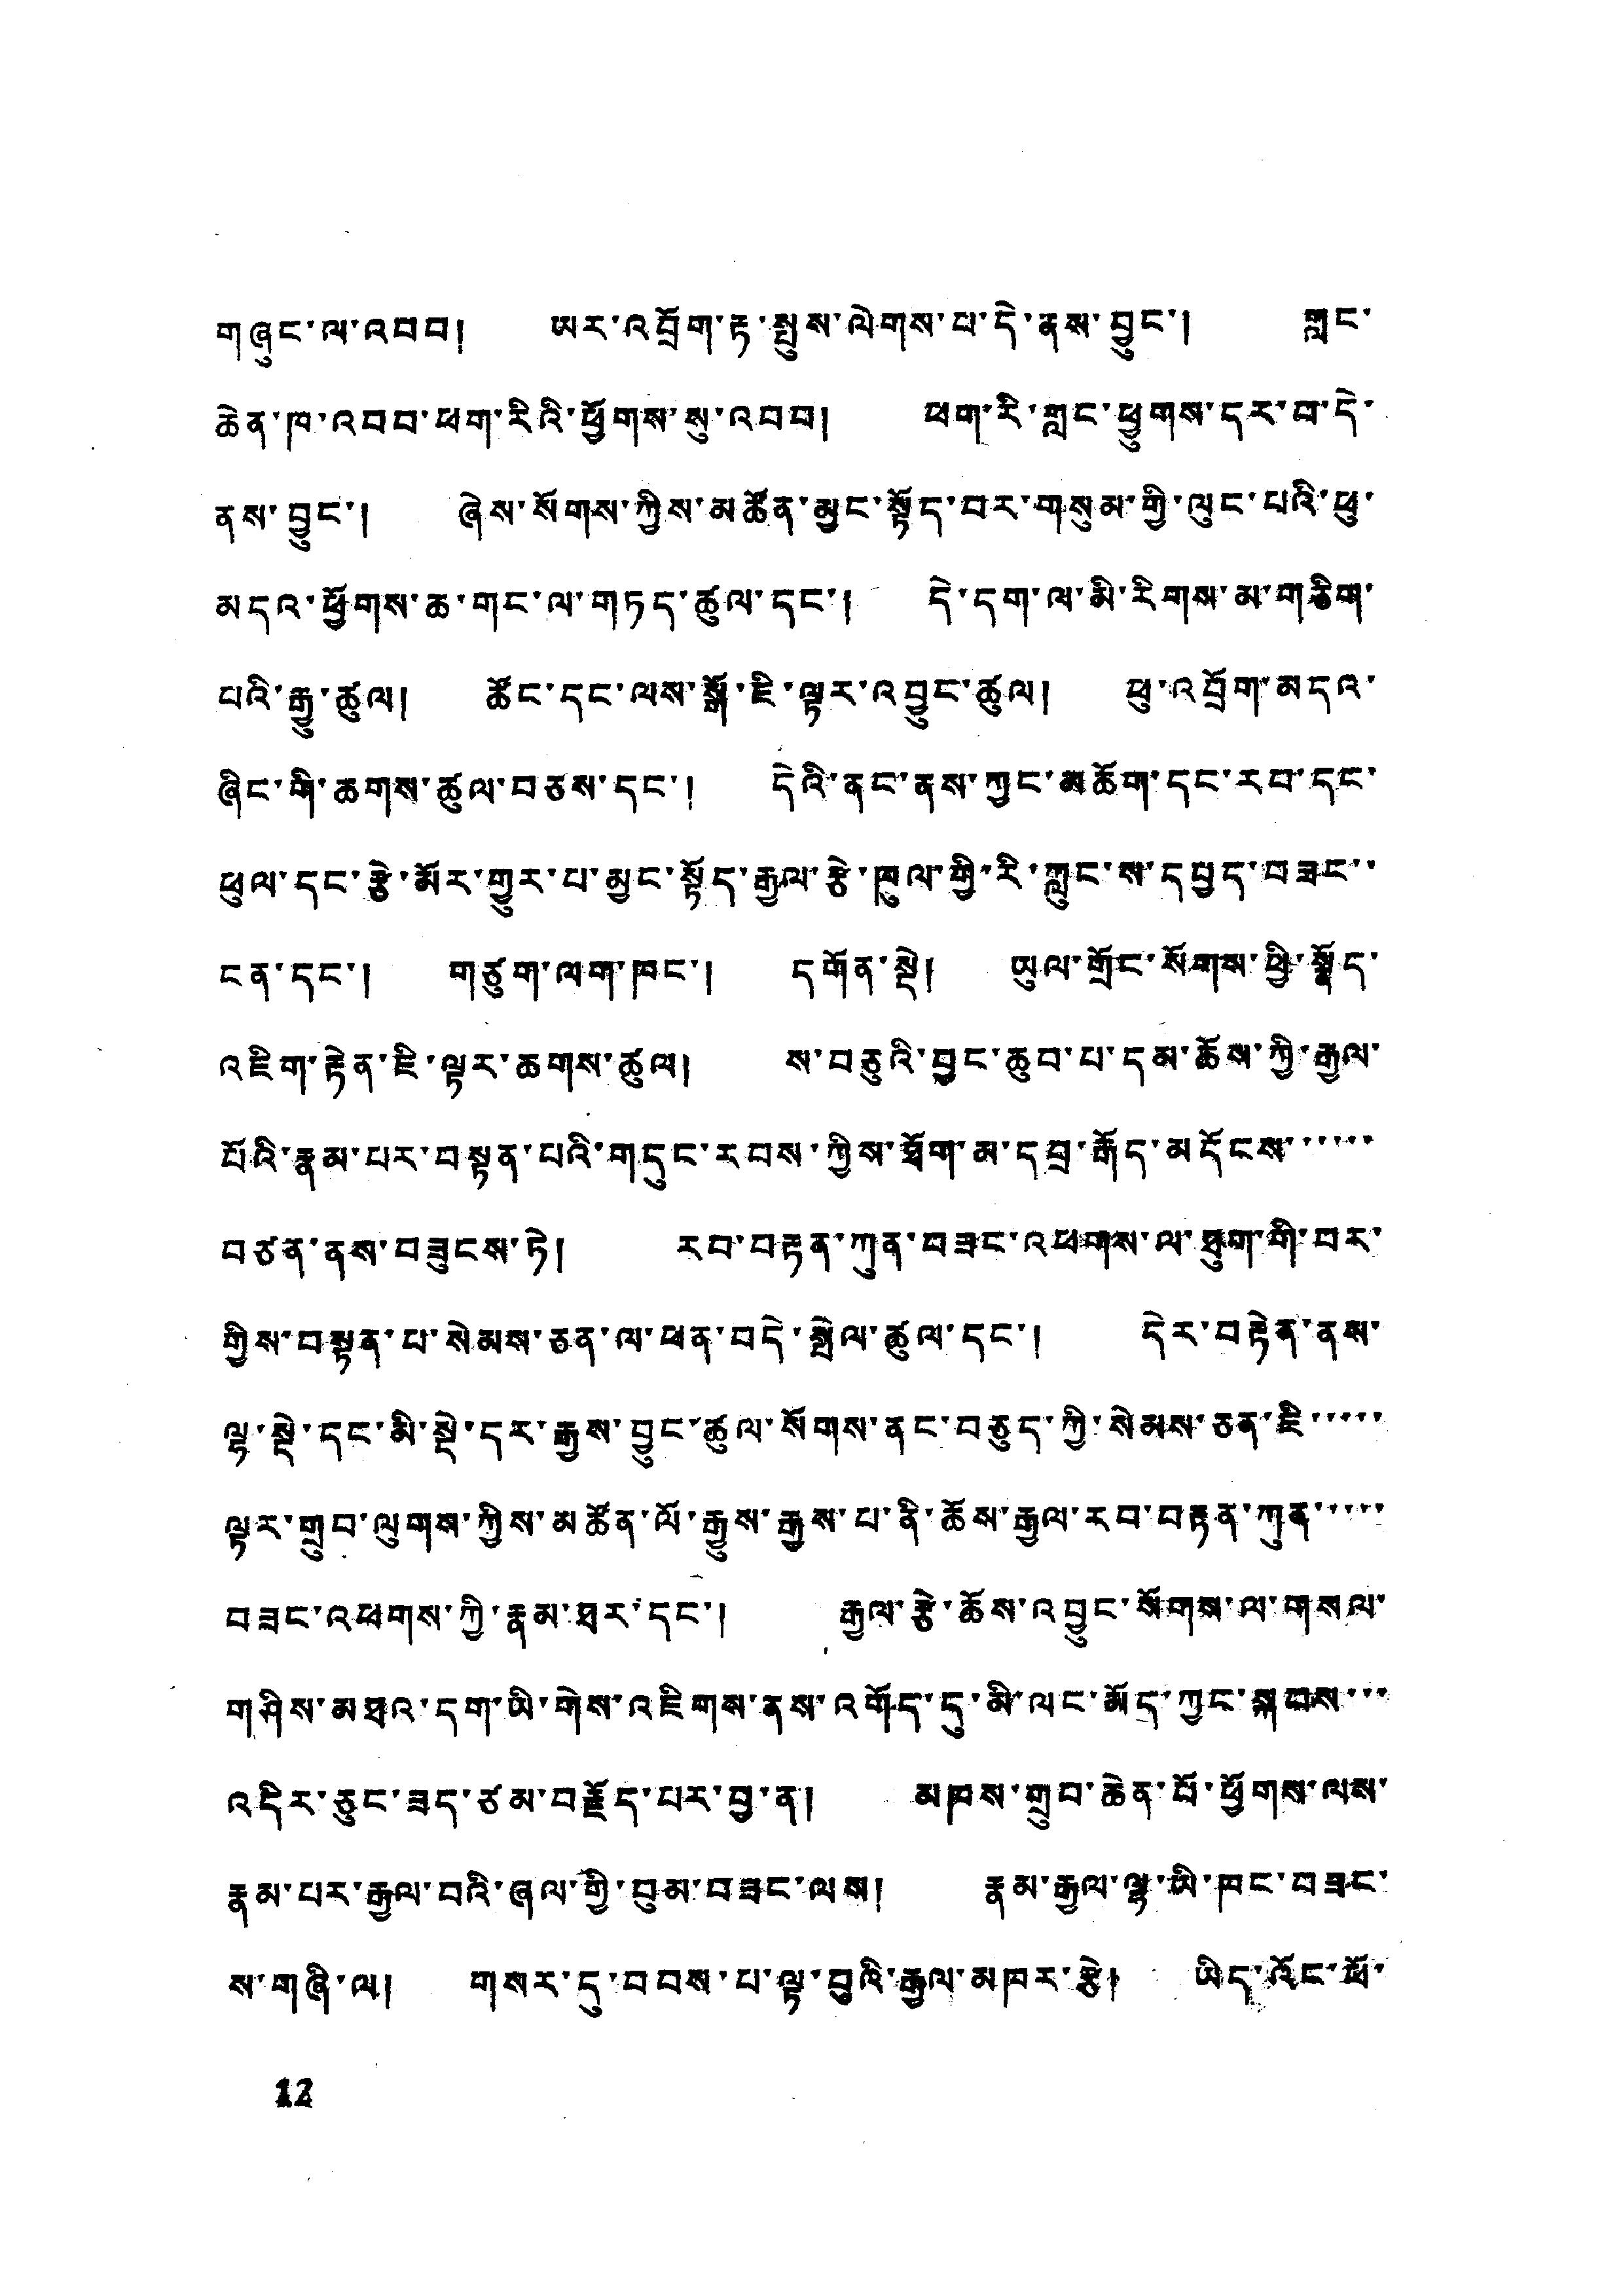གཞུང་ལ་འབབ། ཡར་འབྲོག་རྟ་སྤུས་ལེགས་པ་དེ་ནས་བྱུང་། གླང་
ཆེན་ཁ་འབབ་ཕག་རིའི་ཕྱོགས་སུ་འབབ། ཕག་རི་གླང་ཕྱུགས་དར་བ་དེ་
ནས་བྱུང་། ཞེས་སོགས་ཀྱིས་མཚོན་མྱང་སྟོད་བར་གསུམ་གྱི་ལུང་པའི་ཕུ་
མདའ་ཕྱོགས་ཆ་གང་ལ་གཏད་ཚུལ་དང་། དེ་དག་ལ་མི་རིགས་མ་གཅིག་
པའི་རྒྱུ་ཚུལ། ཚོང་དང་ལས་སྒོ་ཇི་ལྟར་འབྱུང་ཚུལ། ཕུ་འབྲོག་མདའ་
ཞིང་གི་ཆགས་ཚུལ་བཅས་དང་། དེའི་ནང་ནས་ཀྱང་མཆོག་དང་རབ་དང་
ཕུལ་དང་རྩེ་མོར་གྱུར་པ་མྱང་སྟོད་རྒྱལ་རྩེ་ཁུལ་གྱི་རི་ཀླུང་ས་དཔྱད་བཟང་་
ངན་དང་། གཙུག་ལག་ཁང་། དགོན་སྡེ། ཡུལ་གྲོང་སོགས་ཕྱི་སྣོད་
འཇིག་རྟེན་ཇི་ལྟར་ཆགས་ཚུལ། ས་བཅུའི་བྱང་ཆུབ་པ་དམ་ཆོས་ཀྱི་རྒྱལ་
པོའི་རྣམ་པར་བསྟན་པའི་གདུང་རབས་ཀྱིས་ཐོག་མ་དབྲ་རྒོད་མདོངས་་་་་་
བཙན་ནས་བཟུངས་ཏེ། རབ་བརྟན་ཀུན་བཟང་འཕགས་ལ་ཐུག་གི་བར་
གྱིས་བསྟན་པ་སེམས་ཅན་ལ་ཕན་བདེ་སྤེལ་ཚུལ་དང་། དེར་བརྟེན་ནས་
ལྷ་སྡེ་དང་མི་སྡེ་དར་རྒྱས་བྱུང་ཚུལ་སོགས་ནང་བཅུད་ཀྱི་སེམས་ཅན་ཇི་་་་་
ལྟར་གྲུབ་ལུགས་ཀྱིས་མཚོན་ལོ་རྒྱུས་རྒྱས་པ་ནི་ཆོས་རྒྱལ་རབ་བརྟན་ཀུན་་་་་
བཟང་འཕགས་ཀྱི་རྣམ་ཐར་དང་། རྒྱལ་རྩེ་ཆོས་འབྱུང་སོགས་ལ་གསལ་
གཤིས་མཐའ་དག་ཡི་གེས་འཇིགས་ནས་འགོད་དུ་མི་ལང་མོད་ཀྱང་སྐབས་
འདིར་ཅུང་ཟད་བརྗོད་པར་བྱ་ན། མཁས་གྲུབ་ཆེན་པོ་ཕྱོགས་ལས་
རྣམ་པར་རྒྱལ་བའི་ཞལ་གྱི་བུམ་བཟང་ལས། རྣམ་རྒྱལ་ལྷ་ཡི་ཁང་བཟང་
ས་གཞི་ལ། གསར་དུ་བབས་པ་ལྟ་བུའི་རྒྱལ་མཁར་རྩེ། ཡིད་འོང་ཕོ་
12
